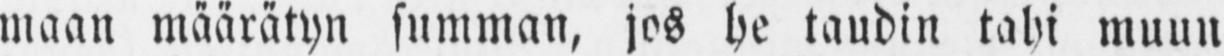maan määrätyn summan, jos he taudin tahi muun
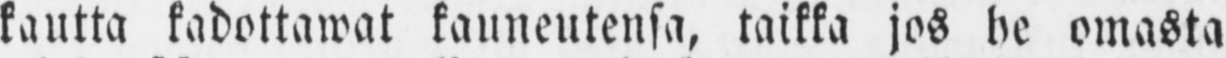kautta kadottawat kauneutensa, taikka jos he omasta
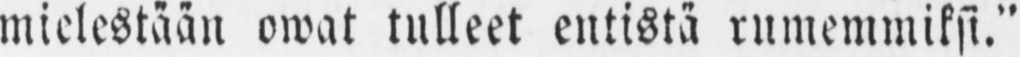mielestään owat tulleet entistä rumemmiksi."
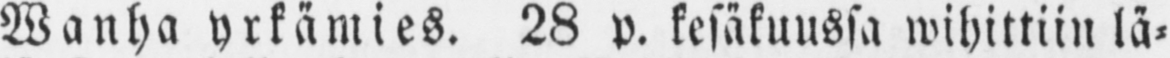Wanha yrkämies. 28 p. kesäkuussa wihittiin lä-
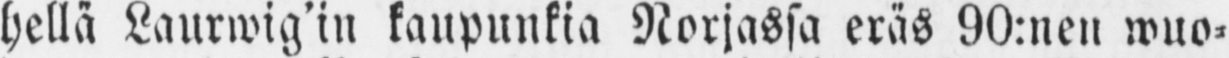hellä Laurwig'in kaupunkia Norjassa eräs 90:nen wuo-
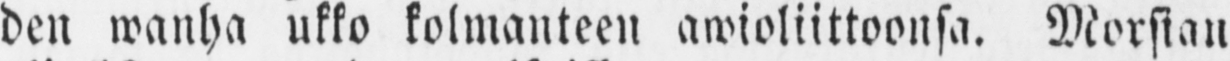den wanha ukko kolmanteen awioliittoonsa. Morsian
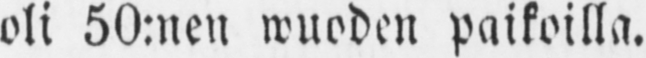oli 50:nen wuoden paikoilla.
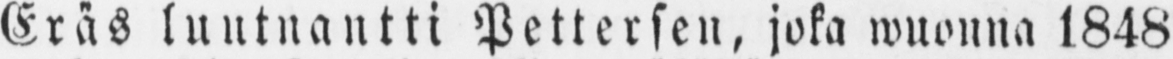Eräs luutnantti Pettersen, joka wuonna 1848
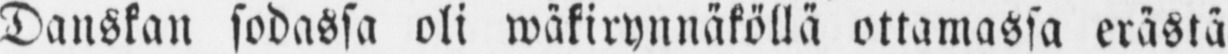Danskan sodassa oli wäkirynnäköllä ottamassa erästä
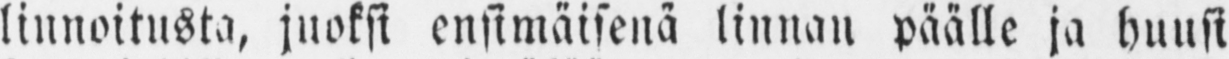linnoitusta, juoksi ensimäisenä linnan päälle ja huusi
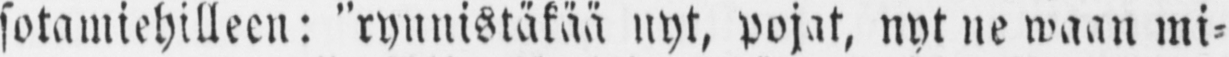sotamiehilleen: "rynnistäkää nyt, pojat, nyt ne waan mi-
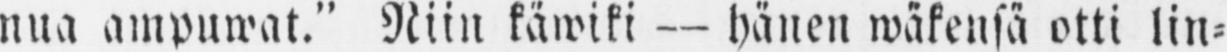nua ampuwat." Niin käwiki — hänen wäkensä otti lin-
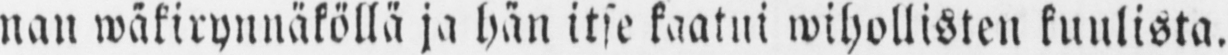nan wäkirynnäköllä ja hän itse kaatui wihollisten kuulista.
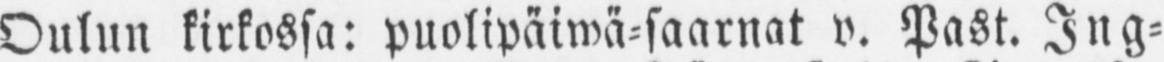Oulun kirkossa: puolipäiwä-saarnat v. Past. Ing-
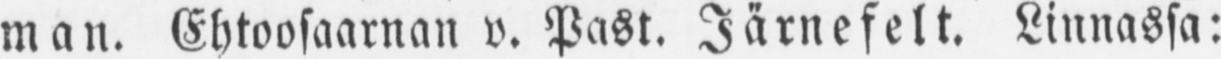man. Ehtoosaarnan v. Past. Järnefelt. Linnassa:
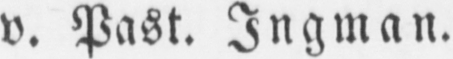v. Past. Ingman.
